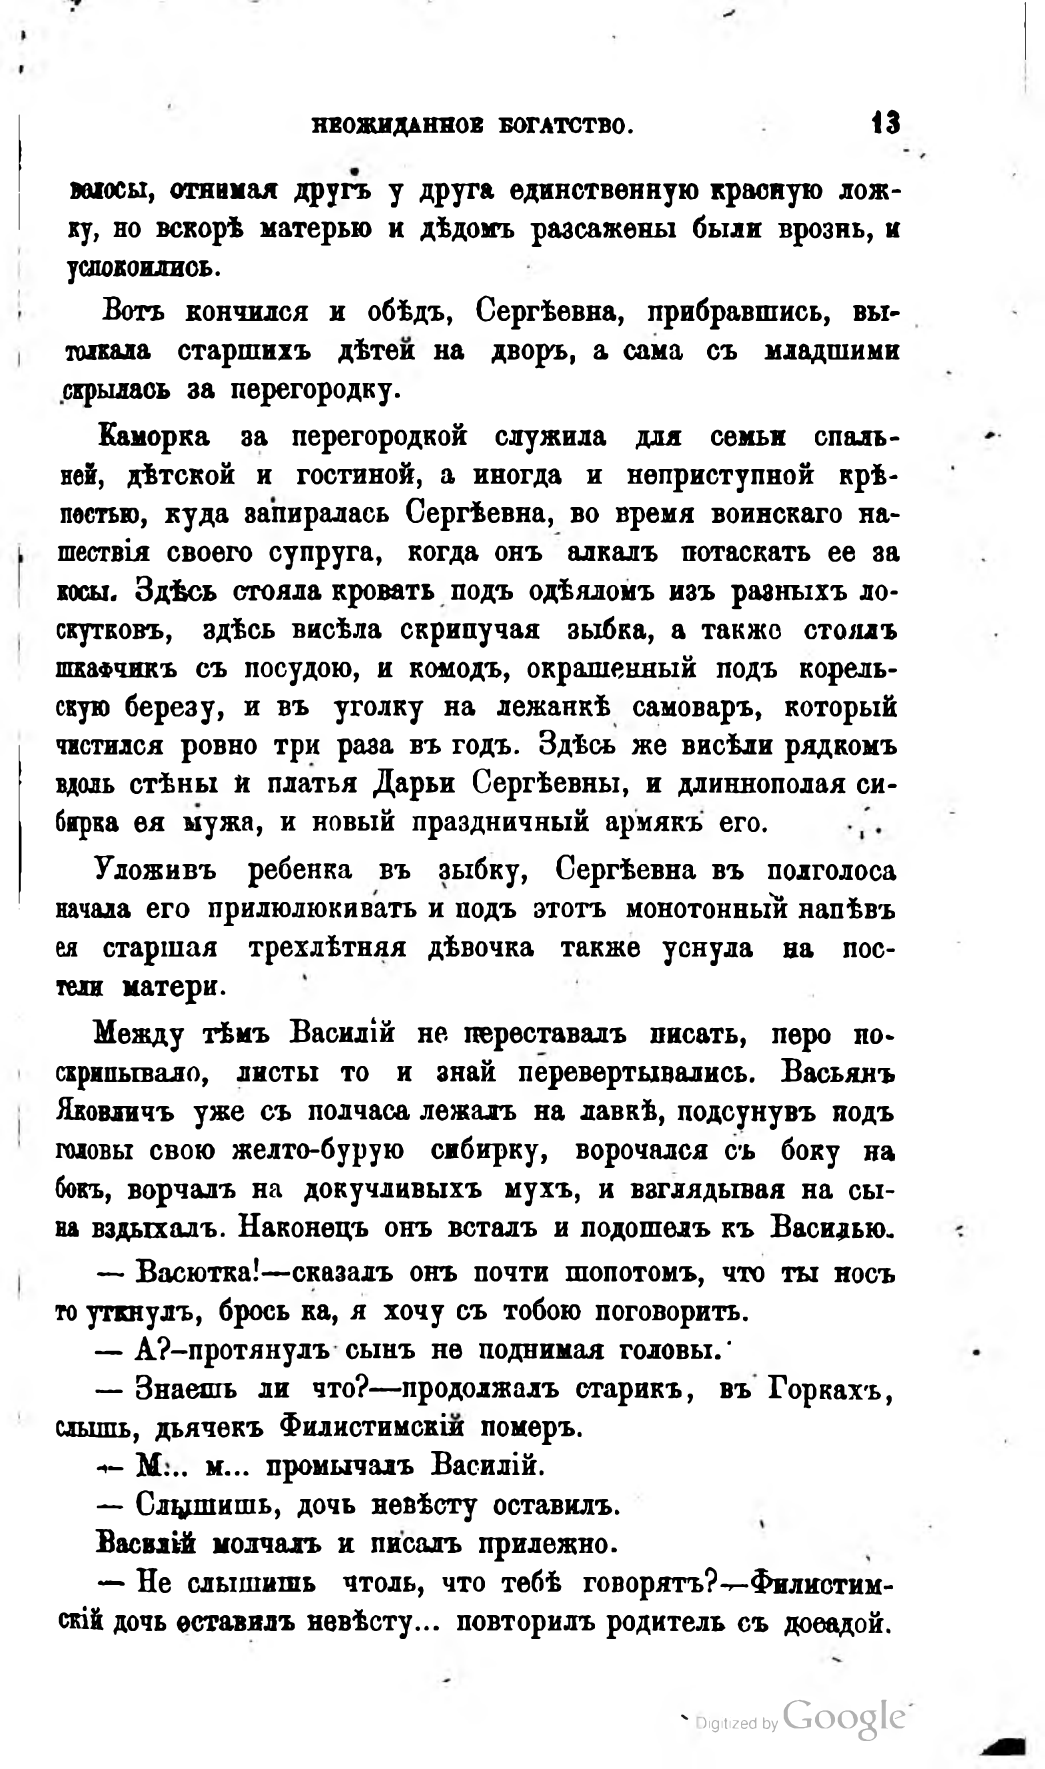НЕОЖИДАННОЕ БОГАТСТВО.                        13
волосы, отнимая другъ у друга единственную красную ложку, но вскорѣ матерью и дѣдомъ разсажены были врознь, и успокоились.
Вотъ кончился и обѣдъ, Сергѣевна, прибравшись, вытолкала старшихъ дѣтей на дворъ, а сама съ младшими скрылась за перегородку.
Каморка за перегородкой служила для семьи спальней, дѣтской и гостиной, а иногда и неприступной крѣпостью, куда запиралась Сергѣевна, во время воинскаго нашествія своего супруга, когда онъ алкалъ потаскать ее за косы. Здѣсь стояла кровать подъ одѣяломъ изъ разныхъ лоскутковъ, здѣсь висѣла скрипучая зыбка, а также стоялъ шкафчикъ съ посудою, и комодъ, окрашенный подъ корельскую березу, и въ уголку на лежанкѣ самоваръ, который чистился ровно три раза въ годъ. Здѣсь же висѣли рядкомъ вдоль стѣны и платья Дарьи Сергѣевны, и длиннополая сибирка ея мужа, и новый праздничный армякъ его.
Уложивъ ребенка въ зыбку, Сергѣевна въ полголоса начала его прилюлюкивать и подъ этотъ монотонный напѣвъ ея старшая трехлѣтняя дѣвочка также уснула на постели матери.
Между тѣмъ Василій не переставалъ писать, перо поскрипывало, листы то и знай перевертывались. Васьянъ Яковличъ уже съ полчаса лежалъ на лавкѣ, подсунувъ подъ головы свою желто-бурую сибирку, ворочался съ боку на бокъ, ворчалъ на докучливыхъ мухъ, и взглядывая на сына вздыхалъ. Наконецъ онъ всталъ и подошелъ къ Василью.
— Васютка! — сказалъ онъ почти шопотомъ, что ты носъ то уткнулъ, брось ка, я хочу съ тобою поговорить.
— А? — протянулъ сынъ не поднимая головы.
— Знаешь ли что? — продолжалъ старикъ, въ Горкахъ, слышь, дьячокъ Филистимскій померъ.
— М… м... промычалъ Василій.
— Слышишь, дочь невѣсту оставилъ.
Василій молчалъ и писалъ прилежно.
— Не слышишь чтоль, что тебѣ говорятъ? — Филистимскій дочь оставилъ невѣсту... повторилъ родитель съ досадой.
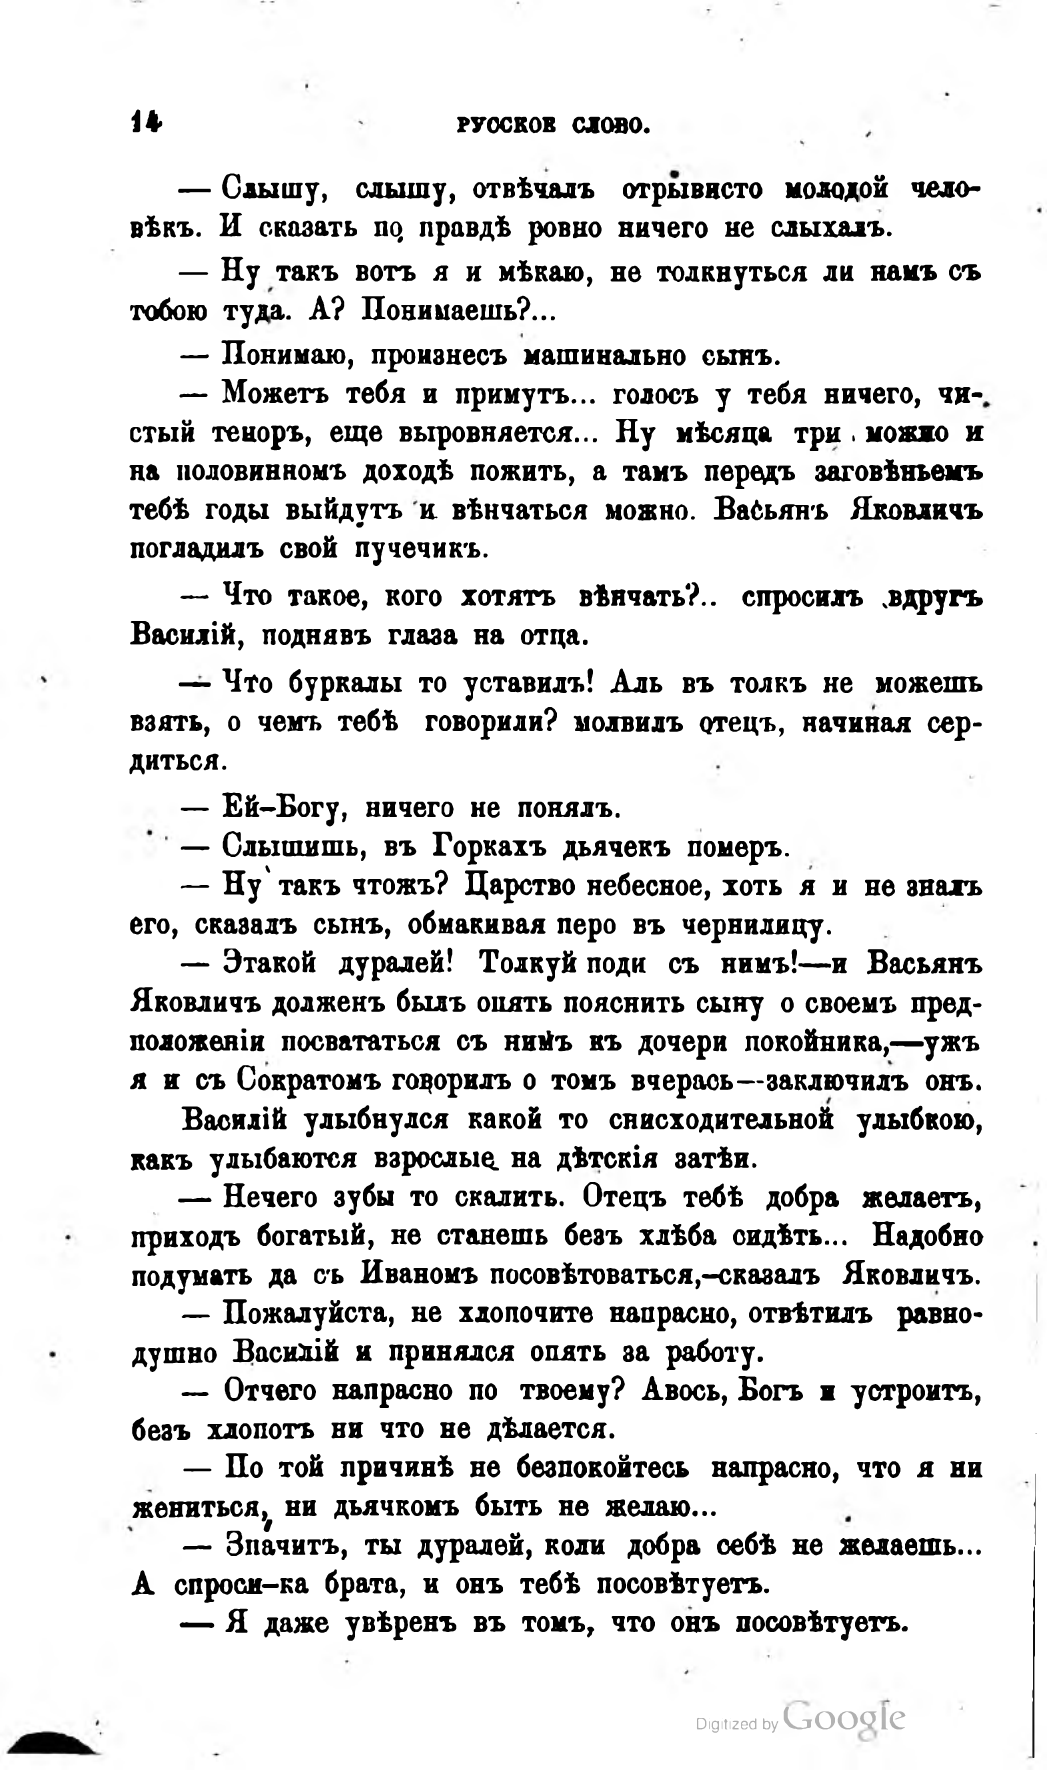14                     РУССКОЕ СЛОВО.
— Слышу, слышу, отвѣчалъ отрывисто молодой человѣкъ. И сказать по правдѣ ровно ничего не слыхалъ.
— Ну такъ вотъ я и мѣкаю, не толкнуться ли намъ съ тобою туда. А? Понимаешь?...
— Понимаю, произнесъ машинально сынъ.
— Можетъ тебя и примутъ... голосъ у тебя ничего, чистый теноръ, еще выровняется... Ну мѣсяца три можно и на половинномъ доходѣ пожить, а тамъ передъ заговѣньемъ тебѣ годы выйдутъ и вѣнчаться можно. Васьянъ Яковличъ погладилъ свой пучечикъ.
— Что такое, кого хотятъ вѣнчать?.. спросилъ вдругъ Василій, поднявъ глаза на отца.
— Что буркалы то уставилъ! Аль въ толкъ не можешь взять, о чемъ тебѣ говорили? молвилъ отецъ, начиная сердиться.
— Ей-Богу, ничего не понялъ.
— Слышишь, въ Горкахъ дьячекъ померъ.
— Ну такъ чтожъ? Царство небесное, хоть я и не зналъ его, сказалъ сынъ, обмакивая перо въ чернилицу.
— Этакой дуралей! Толкуй поди съ нимъ! — и Васьянъ Яковличъ долженъ былъ опять пояснить сыну о своемъ предположеніи посвататься съ нимъ къ дочери покойника, — ужъ я и съ Сократомъ говорилъ о томъ вчерась — заключилъ онъ.
Василій улыбнулся какой то снисходительной улыбкою, какъ улыбаются взрослые на дѣтскія затѣи.
— Нечего зубы то скалить. Отецъ тебѣ добра желаетъ, приходъ богатый, не станешь безъ хлѣба сидѣть... Надобно подумать да съ Иваномъ посовѣтоваться, — сказалъ Яковличъ.
— Пожалуйста, не хлопочите напрасно, отвѣтилъ равнодушно Василій и принялся опять за работу.
— Отчего напрасно по твоему? Авось, Богъ и устроитъ, безъ хлопотъ ни что не дѣлается.
— По той причинѣ не безпокойтесь напрасно, что я ни жениться, ни дьячкомъ быть не желаю...
— Значитъ, ты дуралей, коли добра себѣ не желаешь… А спроси-ка брата, и онъ тебѣ посовѣтуетъ.
— Я даже увѣренъ въ томъ, что онъ посовѣтуетъ.
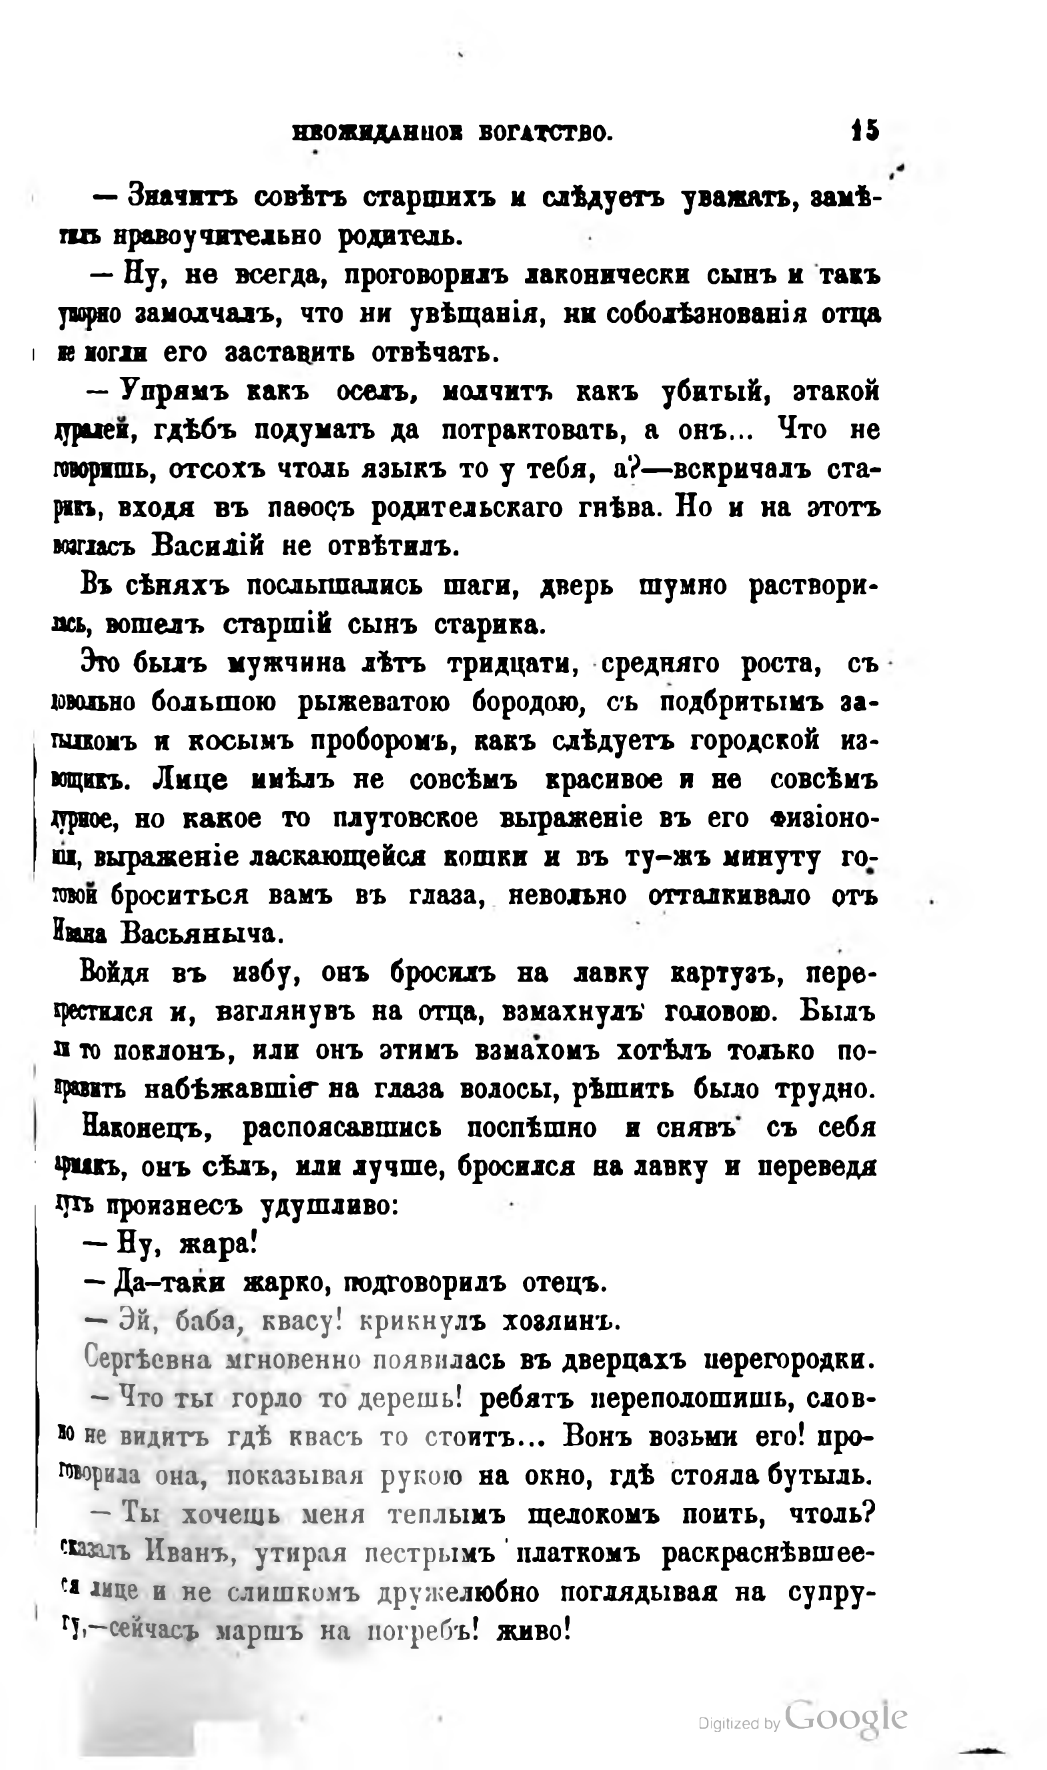НЕОЖИДАННОЕ БОГАТСТВО.                                            15
— Значитъ совѣтъ старшихъ и слѣдуетъ уважать, замѣтилъ нравоучительно родитель.
— Ну, не всегда, проговорилъ лаконически сынъ и такъ упорно замолчалъ, что ни увѣщанія, ни соболѣзнованія отца не могли его заставить отвѣчать.
— Упрямъ какъ оселъ, молчитъ какъ убитый, этакой дуралей, гдѣбъ подумать да потрактовать, а онъ... Что не говоришь, отсохъ чтоль языкъ то у тебя, а? — вскричалъ старикъ, входя въ паѳосъ родительскаго гнѣва. Но и на этотъ возгласъ Василій не отвѣтилъ.
Въ сѣняхъ послышались шаги, дверь шумно растворилась, вошелъ старшій сынъ старика.
Это былъ мужчина лѣтъ тридцати, средняго роста, съ довольно большою рыжеватою бородою, съ подбритымъ затылкомъ и косымъ проборомъ, какъ слѣдуетъ городской извощикъ. Лице имѣлъ не совсѣмъ красивое и не совсѣмъ дурное, но какое то плутовское выраженіе въ его физіономіи, выраженіе ласкающейся кошки и въ ту-жъ минуту готовой броситься вамъ въ глаза, невольно отталкивало отъ Ивана Васьяныча.
Войдя въ избу, онъ бросилъ на лавку картузъ, перекрестился и, взглянувъ на отца, взмахнулъ головою. Былъ ли то поклонъ, или онъ этимъ взмахомъ хотѣлъ только noправить набѣжавшіе на глаза волосы, рѣшить было трудно.
Наконецъ, распоясавшись поспѣшно и снявъ съ себя армякъ, онъ сѣлъ, или лучше, бросился на лавку и переведя духъ произнесъ удушливо:
— Ну, жара!
— Да-таки жарко, подговорилъ отецъ.
— Эй, баба, квасу! крикнулъ хозяинъ.
Сергѣевна мгновенно появилась въ дверцахъ перегородки.
— Что ты горло то дерешь! ребятъ переполошишь, словно не видитъ гдѣ квасъ то стоитъ... Вонъ возьми его! проговорила она, показывая рукою на окно, гдѣ стояла бутыль.
— Ты хочешь меня теплымъ щелокомъ поить, чтоль? сказалъ Иванъ, утирая пестрымъ платкомъ раскраснѣвшееся лице и не слишкомъ дружелюбно поглядывая на супругу, — сейчасъ маршъ на погребъ! живо!
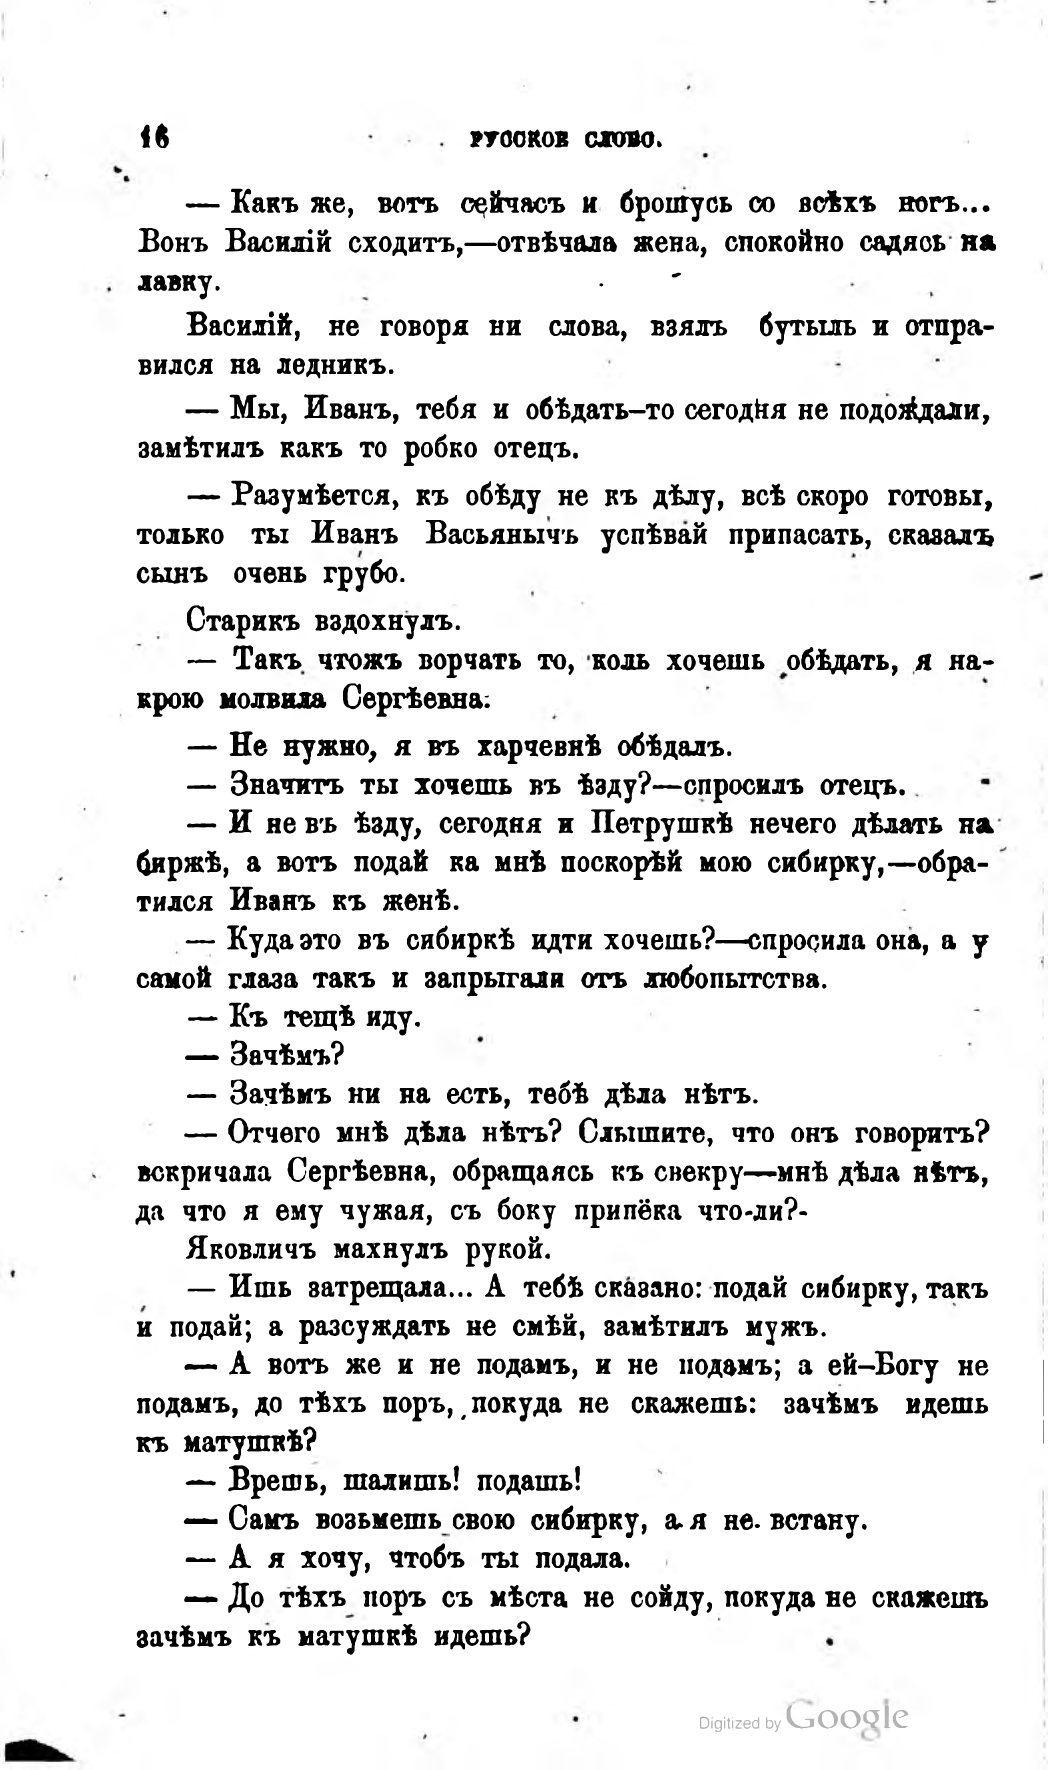16                     РУССКОЕ СЛОВО.
— Какъ же, вотъ сейчасъ и брошусь со всѣхъ ногъ… Вонъ Василій сходитъ, — отвѣчала жена, спокойно садясь на лавку.
Василій, не говоря ни слова, взялъ бутыль и отправился на ледникъ.
— Мы, Иванъ, тебя и обѣдать-то сегодня не подождали, замѣтилъ какъ то робко отецъ.
— Разумѣется, къ обѣду не къ дѣлу, всѣ скоро готовы, только ты Иванъ Васьянычъ успѣвай припасать, сказалъ сынъ очень грубо.
Старикъ вздохнулъ.
— Такъ чтожъ ворчать то, коль хочешь обѣдать, я накрою молвила Сергѣевна.
— Не нужно, я въ харчевнѣ обѣдалъ.
— Значитъ ты хочешь въ ѣзду? — спросилъ отецъ.
— И не въ ѣзду, сегодня и Петрушкѣ нечего дѣлать на биржѣ, а вотъ подай ка мнѣ поскорѣй мою сибирку, — обратился Иванъ къ женѣ.
— Куда это въ сибиркѣ идти хочешь? — спросила она, а у самой глаза такъ и запрыгали отъ любопытства.
— Къ тещѣ иду.
— Зачѣмъ?
— Зачѣмъ ни на есть, тебѣ дѣла нѣтъ.
— Отчего мнѣ дѣла нѣтъ? Слышите, что онъ говоритъ? вскричала Сергѣевна, обращаясь къ свекру — мнѣ дѣла нѣтъ, да что я ему чужая, съ боку припёка что-ли?-
Яковличъ махнулъ рукой.
— Ишь затрещала... А тебѣ сказано: подай сибирку, такъ и подай; а разсуждать не смѣй, замѣтилъ мужъ.
— А вотъ же и не подамъ, и не подамъ; а ей-Богу не подамъ, до тѣхъ поръ, покуда не скажешь: зачѣмъ идешь къ матушкѣ?
— Врешь, шалишь! подашь!
— Самъ возьмешь свою сибирку, а я не встану.
— А я хочу, чтобъ ты подала.
— До тѣхъ поръ съ мѣста не сойду, покуда не скажешь зачѣмъ къ матушкѣ идешь?